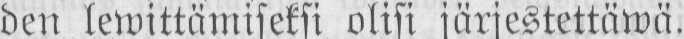den lewittämiseksi olisi järjestettäwä.
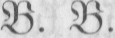B. B.
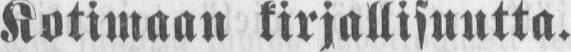Kotimaan kirjallisuutta.
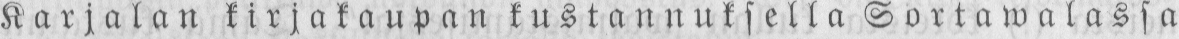Karjalan kirjakaupan kustannuksella Sortawalassa
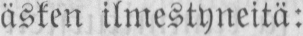äsken ilmestyneitä:
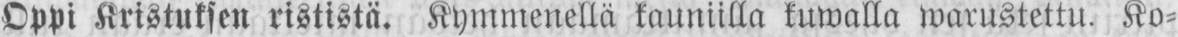Oppi Kristuksen rististä. Kymmenellä kauniilla kuwalla warustettu. Ko-
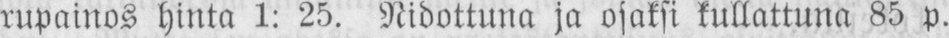rupainos hinta 1: 25. Nidottuna ja osaksi kullattuna 85 p.
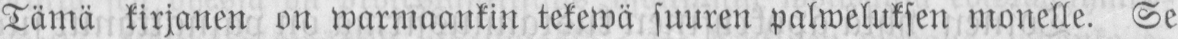Tämä kirjanen on warmaankin tekewä suuren palweluksen monelle. Se
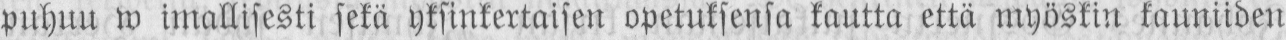puhuu w imallisesti sekä yksinkertaisen opetuksensa kautta että myöskin kauniiden
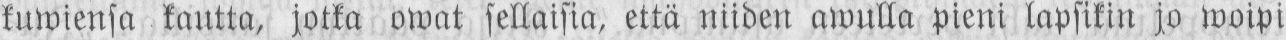kuwiensa kautta, jotka owat sellaisia, että niiden awulla pieni lapsikin jo woipi
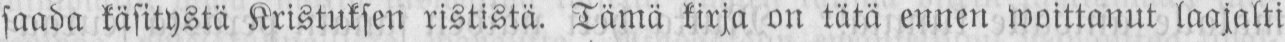saada käsitystä Kristuksen rististä. Tämä kirja on tätä ennen woittanut laajalti
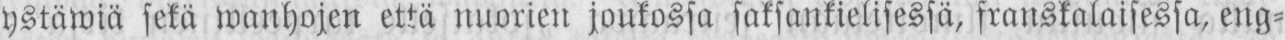ystäwiä sekä wanhojen että nuorien joukossa saksankielisessä, franskalaisessa, eng-
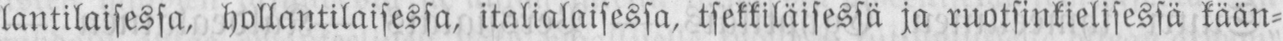lantilaisessa, hollantilaisessa, italialaisessa, tsekkiläisessä ja ruotsinkielisessä kään-
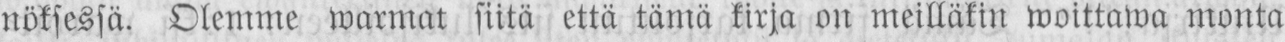nöksessä. Olemme warmat siitä että tämä kirja on meilläkin woittawa monta
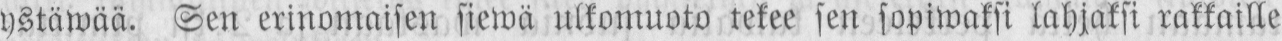ystäwää. Sen erinomaisen siewä ulkomuoto tekee sen sopiwaksi lahjaksi rakkaille
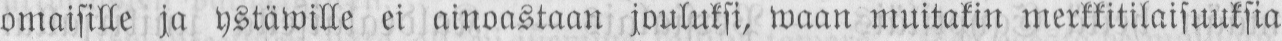omaisille ja ystäwille ei ainoastaan jouluksi, waan muitakin merkkitilaisuuksia
